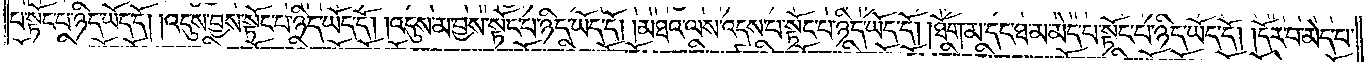པ་སྟོང་པ་ཉིད་ཡོད་དོ། །འདུས་བྱས་སྟོང་པ་ཉིད་ཡོད་དོ། །འདུས་མ་བྱས་སྟོང་པ་ཉིད་ཡོད་དོ། །མཐའ་ལས་འདས་པ་སྟོང་པ་ཉིད་ཡོད་དོ། །ཐོག་མ་དང་ཐ་མ་མེད་པ་སྟོང་པ་ཉིད་ཡོད་དོ། །དོར་བ་མེད་པ་
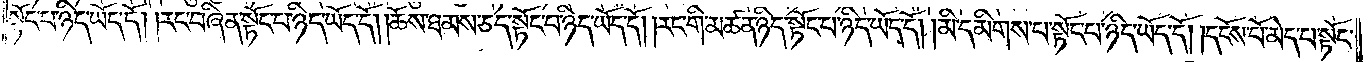སྟོང་པ་ཉིད་ཡོད་དོ། །རང་བཞིན་སྟོང་པ་ཉིད་ཡོད་དོ། །ཆོས་ཐམས་ཅད་སྟོང་པ་ཉིད་ཡོད་དོ། །རང་གི་མཚན་ཉིད་སྟོང་པ་ཉིད་ཡོད་དོ། །མི་དམིགས་པ་སྟོང་པ་ཉིད་ཡོད་དོ། །དངོས་པོ་མེད་པ་སྟོང་
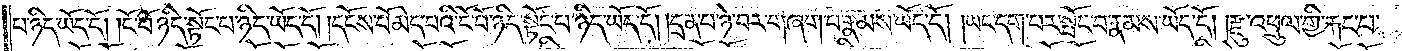པ་ཉིད་ཡོད་དོ། །ངོ་བོ་ཉིད་སྟོང་པ་ཉིད་ཡོད་དོ། །དངོས་པོ་མེད་པའི་ངོ་བོ་ཉིད་སྟོང་པ་ཉིད་ཡོད་དོ། །དྲན་པ་ཉེ་བར་གཞག་པ་རྣམས་ཡོད་དོ། །ཡང་དག་པར་སྤོང་བ་རྣམས་ཡོད་དོ། །རྫུ་འཕྲུལ་གྱི་རྐང་པ་
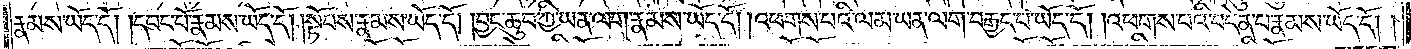རྣམས་ཡོད་དོ། །དབང་པོ་རྣམས་ཡོད་དོ། །སྟོབས་རྣམས་ཡོད་དོ། །བྱང་ཆུབ་ཀྱི་ཡན་ལག་རྣམས་ཡོད་དོ། །འཕགས་པའི་ལམ་ཡན་ལག་བརྒྱད་པ་ཡོད་དོ། །འཕགས་པའི་བདེན་པ་རྣམས་ཡོད་དོ། །
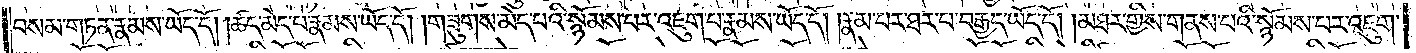བསམ་གཏན་རྣམས་ཡོད་དོ། །ཚད་མེད་པ་རྣམས་ཡོད་དོ། །གཟུགས་མེད་པའི་སྙོམས་པར་འཇུག་པ་རྣམས་ཡོད་དོ། །རྣམ་པར་ཐར་པ་བརྒྱད་ཡོད་དོ། །མཐར་གྱིས་གནས་པའི་སྙོམས་པར་འཇུག་
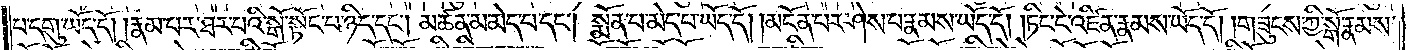པ་དགུ་ཡོད་དོ། །རྣམ་པར་ཐར་པའི་སྒོ་སྟོང་པ་ཉིད་དང༌། མཚན་མ་མེད་པ་དང༌། སྨོན་པ་མེད་པ་ཡོད་དོ། །མངོན་པར་ཤེས་པ་རྣམས་ཡོད་དོ། །ཏིང་ངེ་འཛིན་རྣམས་ཡོད་དོ། །གཟུངས་ཀྱི་སྒོ་རྣམས་
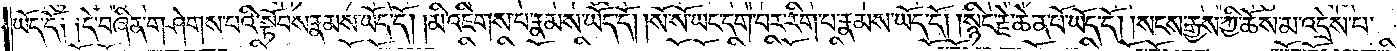ཡོད་དོ། །དེ་བཞིན་གཤེགས་པའི་སྟོབས་རྣམས་ཡོད་དོ། །མི་འཇིགས་པ་རྣམས་ཡོད་དོ། །སོ་སོ་ཡང་དག་པར་རིག་པ་རྣམས་ཡོད་དོ། །སྙིང་རྗེ་ཆེན་པོ་ཡོད་དོ། །སངས་རྒྱས་ཀྱི་ཆོས་མ་འདྲེས་པ་
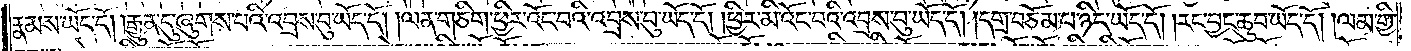རྣམས་ཡོད་དོ། །རྒྱུན་དུ་ཞུགས་པའི་འབྲས་བུ་ཡོད་དོ། །ལན་གཅིག་ཕྱིར་འོང་བའི་འབྲས་བུ་ཡོད་དོ། །ཕྱིར་མི་འོང་བའི་འབྲས་བུ་ཡོད་དོ། །དགྲ་བཅོམ་པ་ཉིད་ཡོད་དོ། །རང་བྱང་ཆུབ་ཡོད་དོ། །ལམ་གྱི་
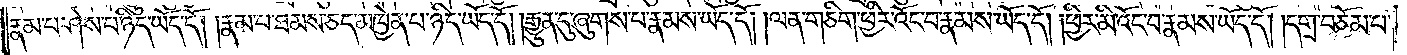རྣམ་པ་ཤེས་པ་ཉིད་ཡོད་དོ། །རྣམ་པ་ཐམས་ཅད་མཁྱེན་པ་ཉིད་ཡོད་དོ། །རྒྱུན་དུ་ཞུགས་པ་རྣམས་ཡོད་དོ། །ལན་གཅིག་ཕྱིར་འོང་བ་རྣམས་ཡོད་དོ། །ཕྱིར་མི་འོང་བ་རྣམས་ཡོད་དོ། །དགྲ་བཅོམ་པ་
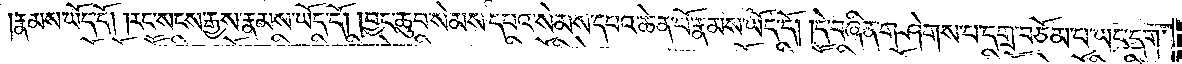རྣམས་ཡོད་དོ། །རང་སངས་རྒྱས་རྣམས་ཡོད་དོ། །བྱང་ཆུབ་སེམས་དཔའ་སེམས་དཔའ་ཆེན་པོ་རྣམས་ཡོད་དོ། །དེ་བཞིན་གཤེགས་པ་དགྲ་བཅོམ་པ་ཡང་དག་
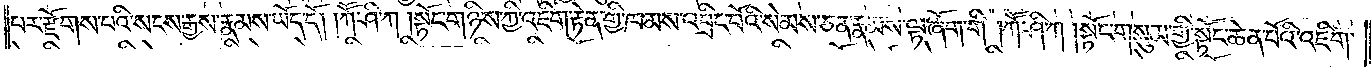པར་རྫོགས་པའི་སངས་རྒྱས་རྣམས་ཡོད་དོ། །ཀཽ་ཤི་ཀ །སྟོང་གཉིས་ཀྱི་འཇིག་རྟེན་གྱི་ཁམས་འབྲིང་བོའི་སེམས་ཅན་རྣམས་ལྟ་ཞོག་གི །ཀཽ་ཤི་ཀ །སྟོང་གསུམ་གྱི་སྟོང་ཆེན་པོའི་འཇིག་
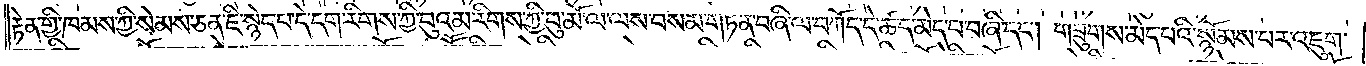རྟེན་གྱི་ཁམས་ཀྱི་སེམས་ཅན་ཇི་སྙེད་པ་དེ་དག་རིགས་ཀྱི་བུའམ་རིགས་ཀྱི་བུ་མོ་ལ་ལས་བསམ་གཏན་བཞི་ལ་བཀོད་དེ་ཚད་མེད་པ་བཞི་དང༌། གཟུགས་མེད་པའི་སྙོམས་པར་འཇུག་
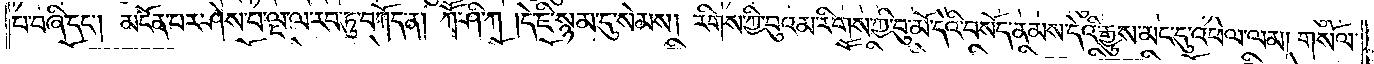པ་བཞི་དང༌། མངོན་པར་ཤེས་པ་ལྔ་ལ་རབ་ཏུ་བཀོད་ན། ཀཽ་ཤི་ཀ །དེ་ཇི་སྙམ་དུ་སེམས། རིགས་ཀྱི་བུའམ་རིགས་ཀྱི་བུ་མོ་དེའི་བསོད་ནམས་དེའི་རྒྱུས་མང་དུ་འཕེལ་ལམ། གསོལ་
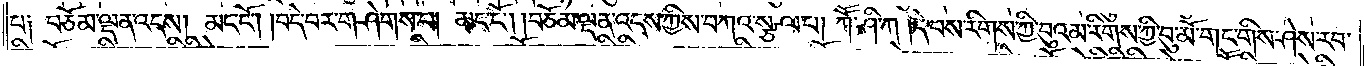པ༑ བཅོམ་ལྡན་འདས། མང་ངོ༌། །བདེ་བར་གཤེགས་པ། མང་ངོ༌། །བཅོམ་ལྡན་འདས་ཀྱིས་བཀའ་སྩལ་པ། ཀཽ་ཤི་ཀ །དེ་བས་རིགས་ཀྱི་བུའམ་རིགས་ཀྱི་བུ་མོ་གང་གིས་ཤེས་རབ་
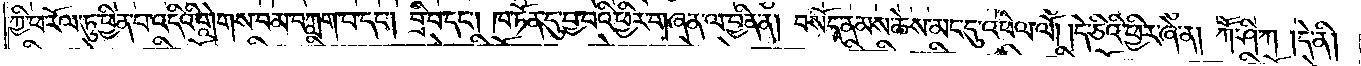ཀྱི་ཕ་རོལ་ཏུ་ཕྱིན་པ་འདིའི་གླེགས་བམ་བཀླག་པ་དང༌། བྲི་བ་དང༌། ཁ་ཏོན་དུ་བྱ་བའི་ཕྱིར་གཞན་ལ་བྱིན་ན། བསོད་ནམས་ཆེས་མང་དུ་འཕེལ་ལོ། །དེ་ཅིའི་ཕྱིར་ཞེ་ན། ཀཽ་ཤི་ཀ །དེ་ནི།
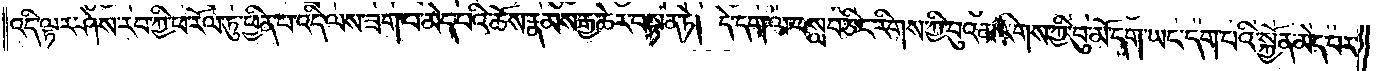འདི་ལྟར་ཤེས་རབ་ཀྱི་ཕ་རོལ་ཏུ་ཕྱིན་པ་འདི་ལས་ཟག་པ་མེད་པའི་ཆོས་རྣམས་རྒྱ་ཆེར་བསྟན་ཏེ། དེ་དག་ལ་བསླབ་ཅིང་རིགས་ཀྱི་བུའམ་རིགས་ཀྱི་བུ་མོ་དག་ཡང་དག་པའི་སྐྱོན་མེད་པར་
